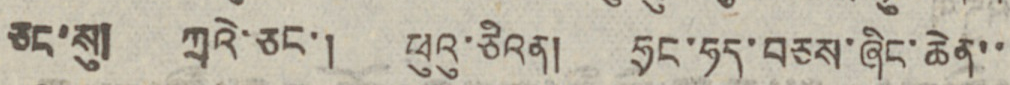ཅང་སུ། ཀྲའེ་ཅང་། ཕུའུ་ཅིའན། ཧྲང་ཧད་བཅས་ཞིང་ཆེན་་
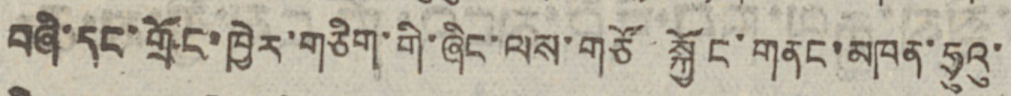བཞི་དང་གྲོང་ཁྱེར་གཅིག་གི་ཞིང་ལས་གཙོ་སྐྱོང་གནང་མཁན་ཧྲུའུ་
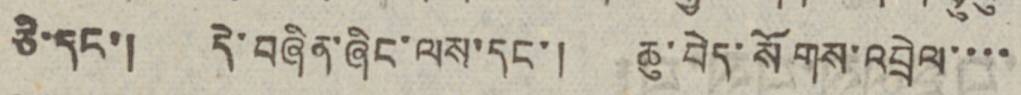ཅི་དང་། དེ་བཞིན་ཞིང་ལས་དང་། ཆུ་བེད་སོགས་འབྲེལ་་་་
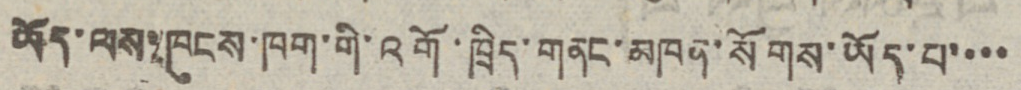ཡོད་ལས་ཁུངས་ཁག་གི་འགོ་ཁྲིད་གནང་མཁན་སོགས་ཡོད་པ་་་་
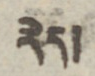རེད།
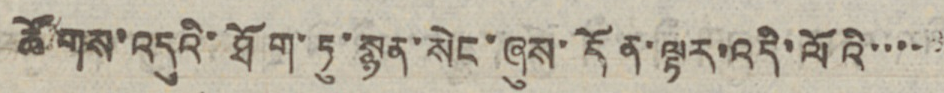ཚོགས་འདུའི་ཐོག་ཏུ་སྙན་སེང་ཞུས་དོན་ལྟར་འདི་ལོའི་་་་
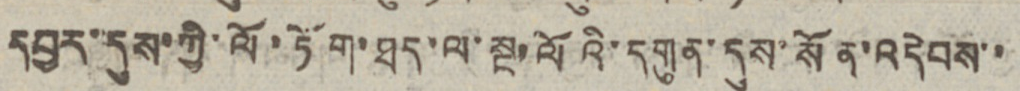དབྱར་དུས་ཀྱི་ལོ་ཏོག་ཐད་ལ་སྔ་ལོའི་དགུན་དུས་སོན་འདེབས་་
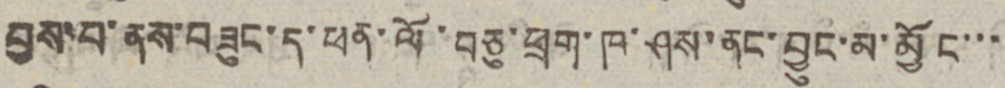བྱས་པ་ནས་བཟུང་ད་ཕན་ལོ་བཅུ་ཕྲག་ཁ་ཤས་ནང་བྱུང་མ་མྱོང་་་
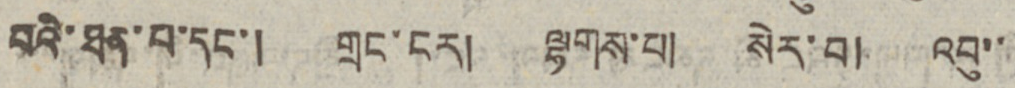བའི་ཐན་པ་དང་། གྲང་ངར། ལྷགས་པ། སེར་བ། འབུ་་
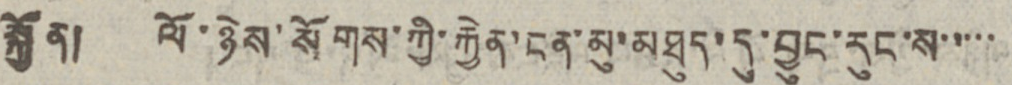སྐྱོན། ལོ་ཉེས་སོགས་ཀྱི་རྐྱེན་ངན་མུ་མཐུད་དུ་བྱུང་རུང་ས་་་་་
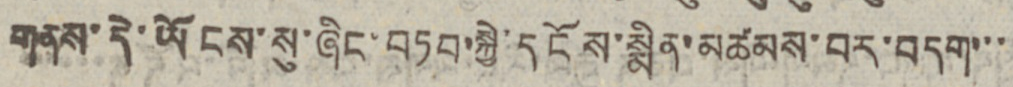གནས་དེ་ཡོངས་སུ་ཞིང་བཏབ་སྐྱེ་དངོས་སྨིན་མཚམས་བར་བདག་་་
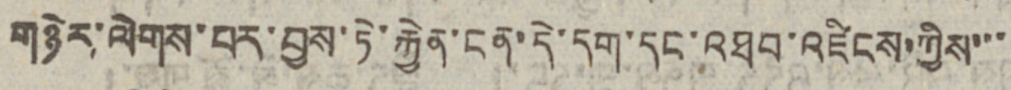གཉེར་ལེགས་པར་བྱས་ཏེ་རྐྱེན་ངན་དེ་དག་དང་འཐབ་འཛིངས་ཀྱིས་་་
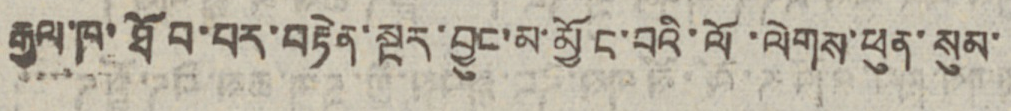རྒྱལ་ཁ་ཐོབ་པར་བརྟེན་སྔར་བྱུང་མ་མྱོང་བའི་ལོ་ལེགས་ཕུན་སུམ་
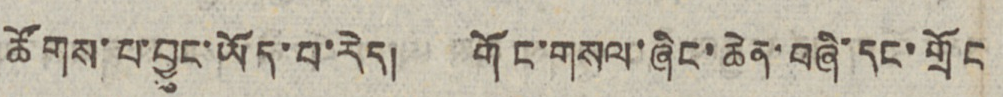ཚོགས་པ་བྱུང་ཡོད་པ་རེད། གོང་གསལ་ཞིང་ཆེན་བཞི་དང་གྲོང
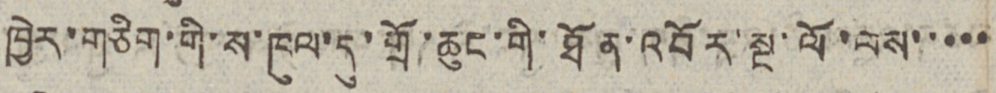ཁྱེར་གཅིག་གི་ས་ཁུལ་དུ་གྲོ་ཆུང་གི་ཐོན་འབོར་སྔ་ལོ་ལས་་་་་
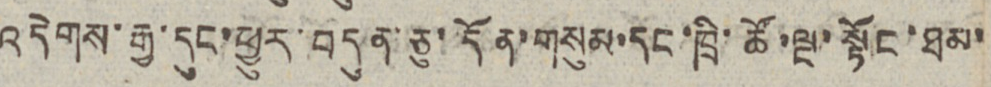འདེགས་རྒྱ་དུང་ཕྱུར་བདུན་ཅུ་དོན་གསུམ་དང་ཁྲི་ཚོ་ལྔ་སྟོང་ཐམ་
